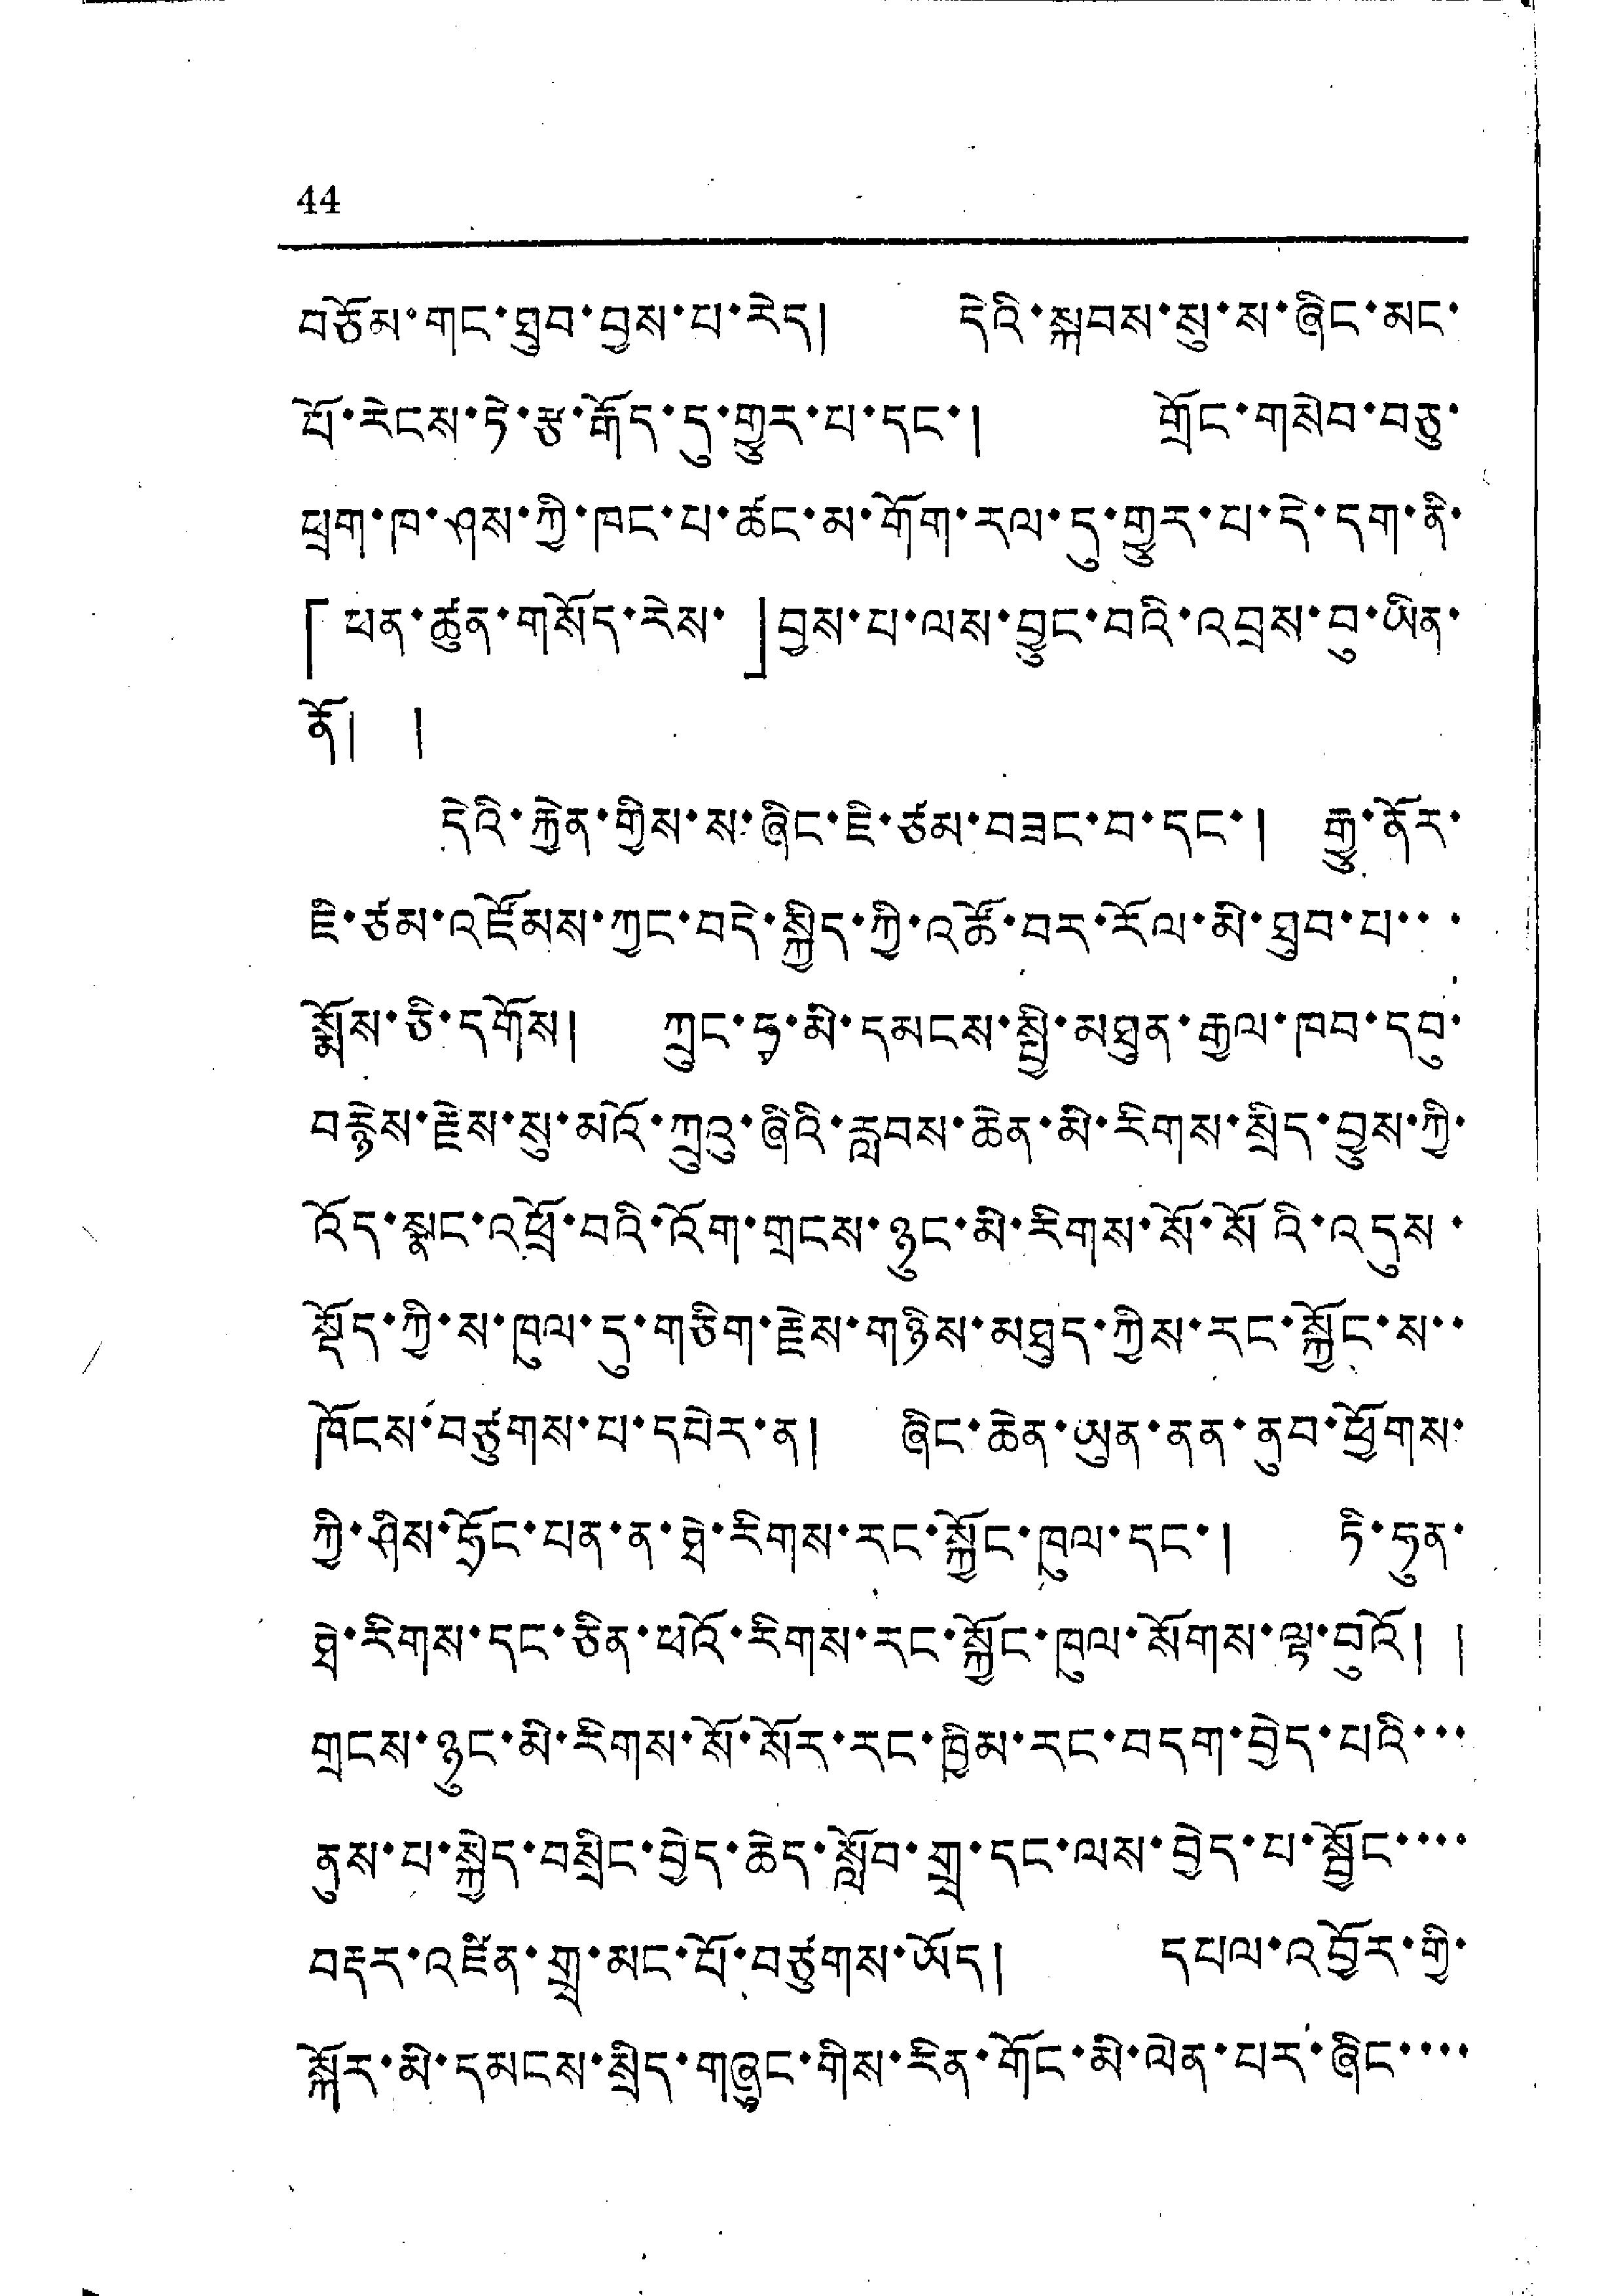44
བཅོམ་གང་ཐུབ་བྱས་པ་རེད། དེའི་སྐབས་སུ་ས་ཞིང་མང་
པོ་རེངས་ཏེ་རྩ་རྒོད་དུ་གྱུར་པ་དང་། གྲོང་གསེབ་བཅུ་
ཕྲག་ཁ་ཤས་ཀྱི་ཁང་པ་ཚང་མ་གོག་རལ་དུ་གྱུར་པ་དེ་དག་ནི་
「ཕན་ཚུན་གསོད་རེས་」བྱས་པ་ལས་བྱུང་བའི་འབྲས་བུ་ཡིན་
ནོ། །
དེའི་རྐྱེན་གྱིས་ས་ཞིང་ཇི་ཙམ་བཟང་བ་དང་། རྒྱུ་ནོར་
ཇི་ཙམ་འཛོམས་ཀྱང་བདེ་སྐྱིད་ཀྱི་འཚོ་བར་རོལ་མི་ཐུབ་པ་་་
སྨོས་ཅི་དགོས། ཀྲུང་ཧྭ་མི་དམངས་སྤྱི་མཐུན་རྒྱལ་ཁབ་དབུ་
བརྙེས་རྗེས་སུ་མའོ་ཀྲུའུ་ཞིའི་རླབས་ཆེན་མི་རིགས་སྲིད་བྱུས་ཀྱི་
འོད་སྣང་འཕྲོ་བའི་འོག་གྲངས་ཉུང་མི་རིགས་སོ་སོའི་འདུས་
སྡོད་ཀྱི་ས་ཁུལ་དུ་གཅིག་རྗེས་གཉིས་མཐུད་ཀྱིས་རང་སྐྱོང་ས་་
ཁོངས་བཙུགས་པ་དཔེར་ན། ཞིང་ཆེན་ཡུན་ནན་ནུབ་ཕྱོགས་
ཀྱི་ཤིས་ཧྲོང་པན་ན་ཐེ་རིགས་རང་སྐྱོང་ཁུལ་དང་། ཏི་ཧུན་
ཐེ་རིགས་དང་ཅིན་ཕའོ་རིགས་རང་སྐྱོང་ཁུལ་སོགས་ལྟ་བའོ། །
གྲངས་ཉུང་མི་རིགས་སོ་སོར་རང་ཁྱིམ་རང་བདག་བྱེད་པའི་་་
ནུས་པ་སྐྱེད་བསྲིང་བྱེད་ཆེད་སློབ་གྲྭ་དང་ལས་བྱེད་པ་སྦྱོང་་་་
བརྡར་འཛིན་གྲྭ་མང་པོ་བཙུགས་ཡོད། དཔལ་འབྱོར་གྱི་
སྐོར་མི་དམངས་སྲིད་གཞུང་གིས་རིན་གོང་མི་ལེན་པར་ཞིང་་་་
